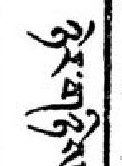ཉེར་གཉིས་
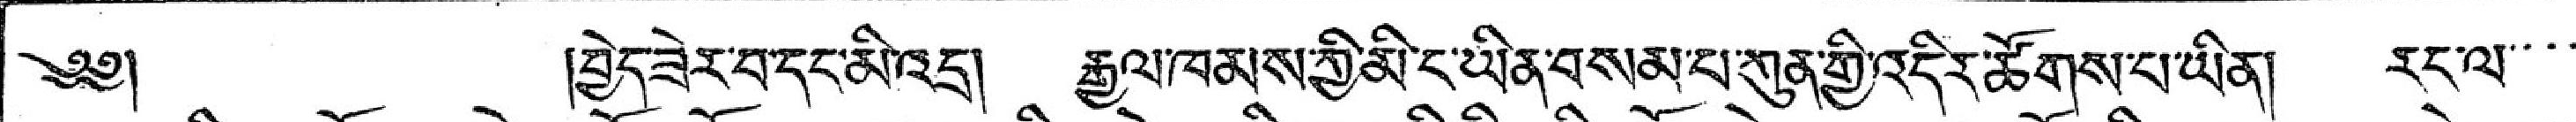༄༅། །བྱེད་ཟེར་བ་དང་མི་འདྲ། རྒྱལ་ཁམས་ཀྱི་མི་ང་ཡིན་བསམ་པ་ཀུན་གྱི་འདིར་ཚོགས་པ་ཡིན། རང་ལ་་་་
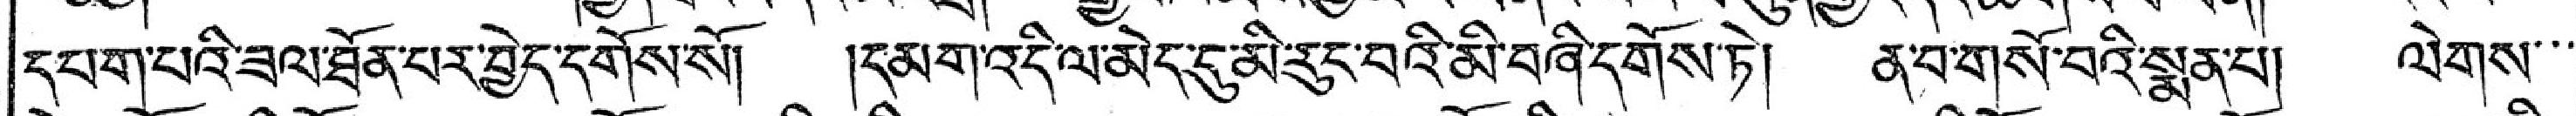དཔག་པའི་ཟལ་ཐོན་པར་བྱེད་དགོས་སོ། །དམག་འདིལ་མེད་དུ་མི་རུང་བའི་མི་བཞི་དགོས་ཏེ། ན་བ་གསོ་བའི་སྨན་པ། ལེགས་་་
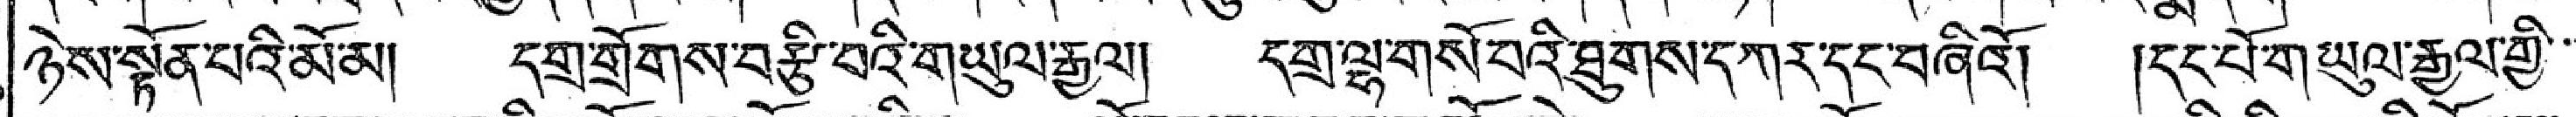ཉེས་སྣོན་པའི་མོ་མ། དགྲ་གྲོགས་བརྩི་བའི་གཡུལ་རྒྱལ། དགྲ་ལྷ་གསོ་བའི་ཐུགས་དཀར་དང་བཞིའོ། །དང་པོ་གཡུལ་རྒྱལ་གྱི་་་
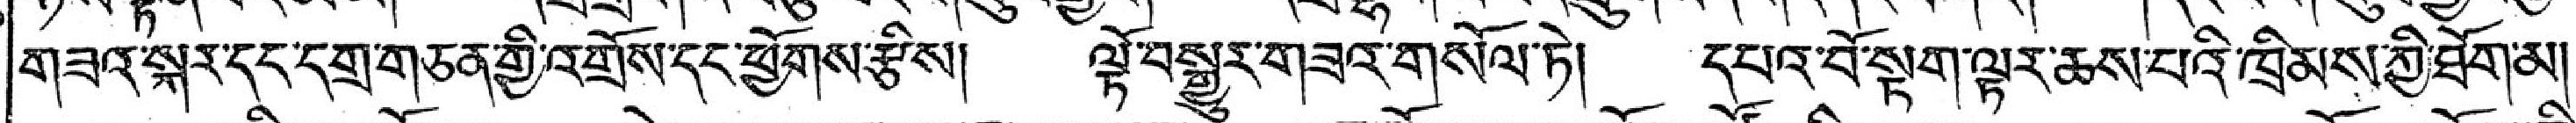གཟའ་སྐར་དང་དགྲ་གཅན་གྱི་འགྲོས་དང་ཕྱོགས་རྩིས། ལྟོ་བསྒྱུར་གཟའ་གསོལ་ཏེ། དཔའ་བོ་སྟག་ལྟར་ཆས་པའི་ཁྲིམས་ཀྱི་ཐོག་མ།
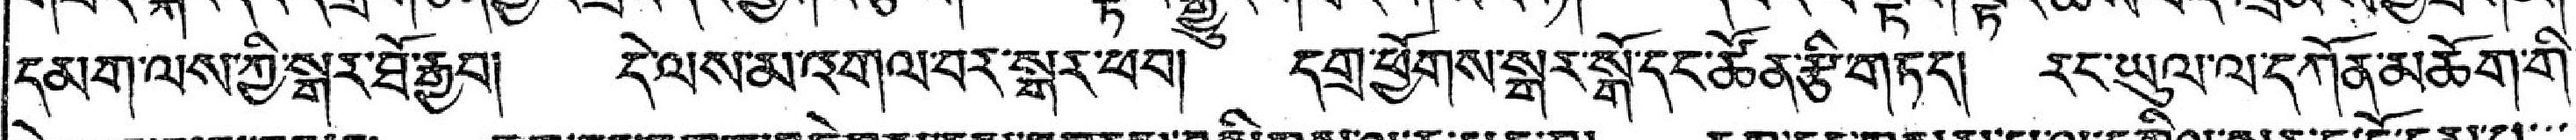དམག་ལས་ཀྱི་སྒར་ཐོ་རྒྱབ། དེ་ལས་མ་འགལ་བར་སྒར་ཕབ། དགྲ་ཕྱོགས་སྒར་སྒོ་དང་ཚོན་རྩི་གཏད། རང་ཡུལ་ལ་དཀོན་མཆོག་གི་
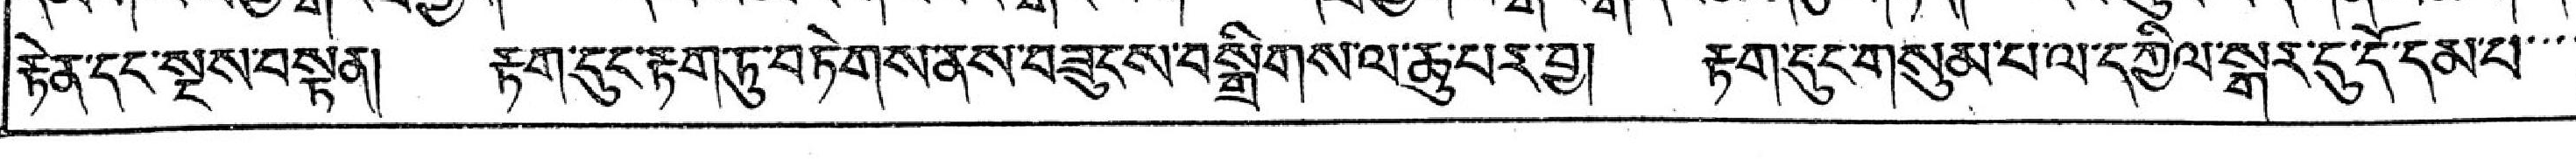རྟེན་དང་སྔས་བསྟན། རྟག་དུང་རྟག་ཏུ་བཏེགས་ནས་བཟུངས་བསྒྲིགས་ལ་ཆུ་པར་བྱ། རྟག་དུང་གསུམ་པ་ལ་དཀྱིལ་སྒར་དུ་དོ་དམ་པ་་་་
